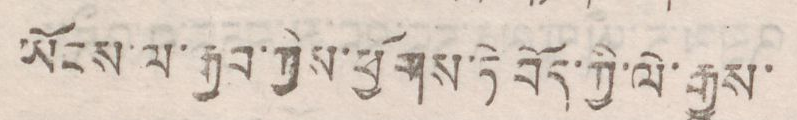ཡོངས་ལ་རྒྱབ་གྱིས་ཕྱོགས་ཏེ་བོད་ཀྱི་ལེ་རྒྱུས་
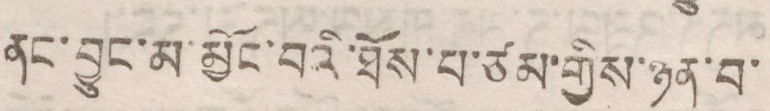ནང་བྱུང་མ་མྱོང་བའི་ཐོས་པ་ཙམ་གྱིས་ཉན་བ་
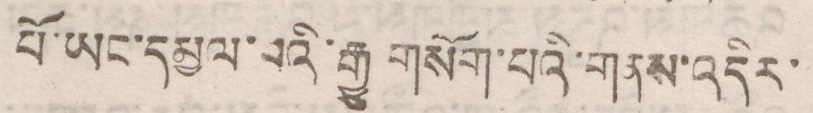པོ་ཡང་དམྱལ་བའི་རྒྱུ གསོག་པའི་གནས་འདིར་
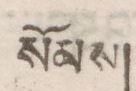སོམས།
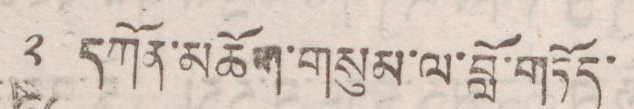༢ དཀོན་མཆོག་གསུམ་ལ་བློ་གཏོད་
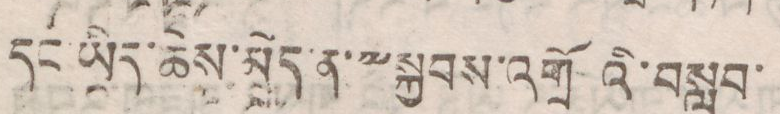དང་ཡིད་ཆེས་མེད་ན་༸སྐྱབས་འགྲོའི་བསླབ་
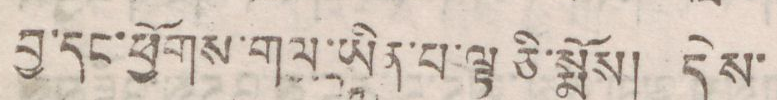བྱ་དང་ཕྱོགས་གལ་ཡིན་པ་ལྟ་ཅི་སྨོས། དེས་
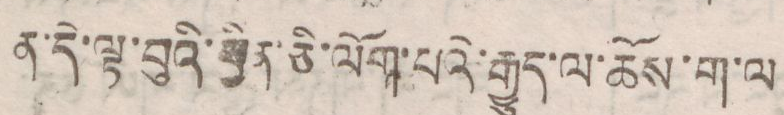ན་དེ་ལྟ་བུའི་ཕྱིན་ཅི་ལོག་པའི་རྒྱུད་ལ་ཆོས་ག་ལ
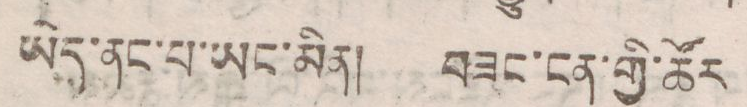ཡེད་ནང་པ་ཡང་མིན། བཟང་ངན་གྱི་ཚོར
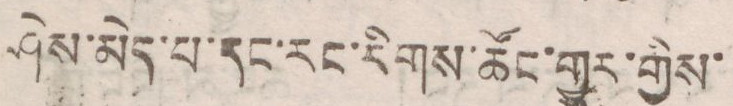ཤེས་མེད་པ་དང་རང་རིགས་ཚོང་གྱུར་གྱིས་
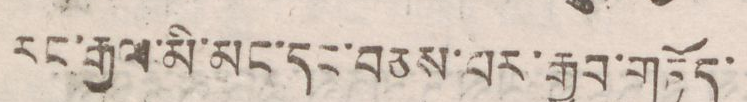རང་རྒྱལ་མི་མང་དང་བཅས་པར་རྒྱབ་གཏོད་
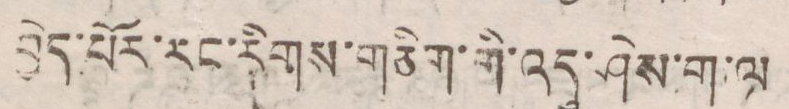བྱེད་པོར་རང་རིགས་གཅིག་གི་འདུ་ཤེས་ག་ལ
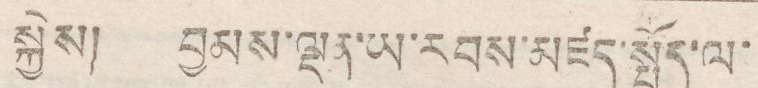སྐྱེས། བྱམས་ལྡན་ཡ་རབས་མཛད་སྤྱོད་ལ་
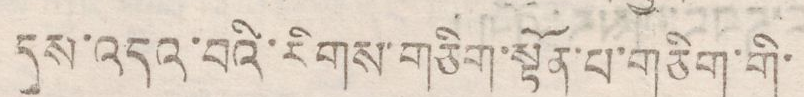དུས་འདའ་བའི་རིགས་གཅིག་སྟོན་པ་གཅིག་གི་
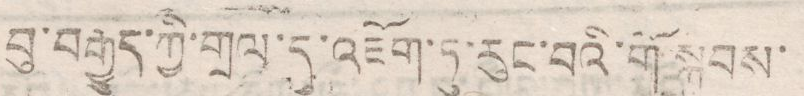བུ་བརྒྱུད་ཀྱི་གྲལ་དུ་འཇོག་དུ་རུང་བའི་གོ་སྐབས་
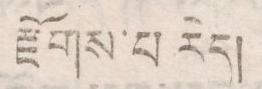རྫོགས་པ་རེད།
